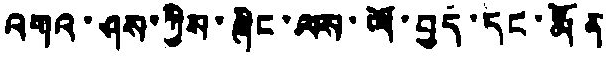འགའ་ཤས་ཀྱིས་ཞིང་ལས་ཡོ་བྱད་དང་རྨོན
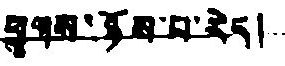ཕྱུགས་ཉོས་པ་རེད།
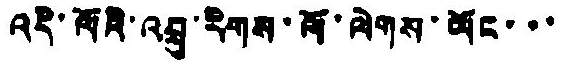འདི་ལོའི་འབྲུ་རིགས་ལོ་ལེགས་ཡོང་་་
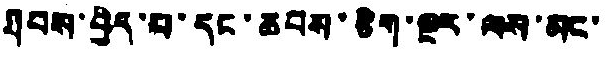ཐབས་བྱེད་པ་དང་ཆབས་ཅིག་ལྔར་ལས་མང་
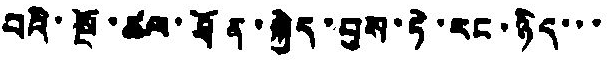བའི་སྔོ་ཚལ་ཐོན་སྐྱེད་བྱས་ཏེ་རང་ཉིད་་་
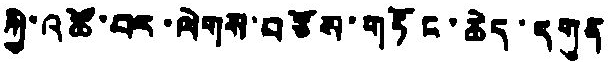ཀྱི་འཚོ་བར་ལེགས་བཅོས་གཏོང་ཆེད་དགུན
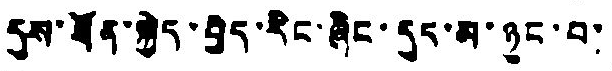དུས་ཐོན་སྐྱེད་བྱེད་རིང་ཞིང་དུང་མ་ཉུང་བ་
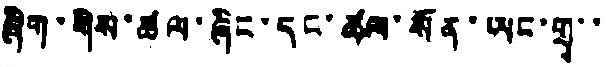ཞིག་གིས་ཚལ་ཞིང་དང་ཚལ་སོན་ཡང་གྲྭ་་
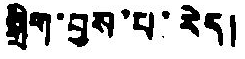སྒྲིག་བྱས་པ་རེད།
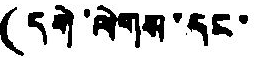(དགེ་ལེགས་དང་
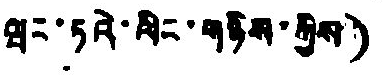ཝང་ཏའེ་ལིང་གཉིས་ཀྱིས)
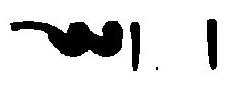༄༅། །
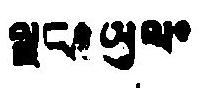ལྗང་ཡུལ་
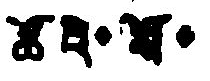ཚོའི་སོ་
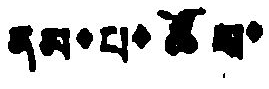ནམ་པ་ཚོས་
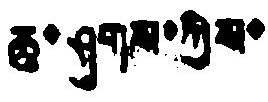ཆུ་ཤུགས་ཀྱིས་
